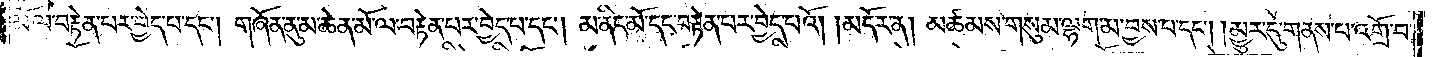མོ་ལ་བརྟེན་པར་བྱེད་པ་དང༌། གཞོན་ནུ་མ་ཆེན་མོ་ལ་བརྟེན་པར་བྱེད་པ་དང༌། མ་ནིང་མོ་དང་བརྟེན་པར་བྱེད་པའོ། །མདོར་ན། མཚམས་གསུམ་ལྷག་མ་བྱས་པ་དང༌། །མྱུར་དུ་གནས་པ་འགྲོ་བ་
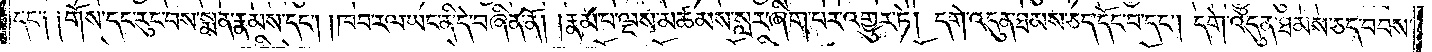དང་༑ ༑གོས་དང་རུང་བས་སྨན་རྣམས་དང༌། །ཁབ་རལ་ཡང་ནི་དེ་བཞིན་ནོ། །རྣམ་པ་ལྔས་མཚམས་སླར་ཞིག་པར་འགྱུར་ཏེ། དགེ་འདུན་ཐམས་ཅད་དོང་བ་དང༌། དགེ་འདུན་ཐམས་ཅད་བབས་
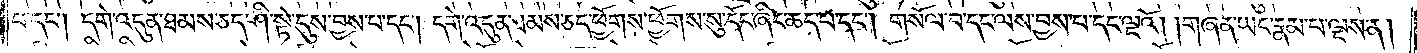པ་དང༌། དགེ་འདུན་ཐམས་ཅད་ཤི་སྟེ་དུས་བྱས་པ་དང༌། དགེ་འདུན་ཐམས་ཅད་ཕྱོགས་ཕྱོགས་སུ་དོང་ཞིང་ཆད་པ་དང༌། གསོལ་བ་དང་ལས་བྱས་པ་དང་ལྔའོ། །གཞན་ཡང་རྣམ་པ་ལྔས་ན།
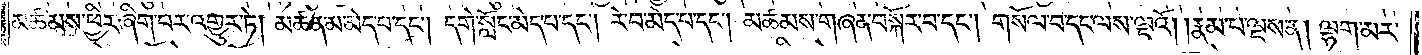མཚམས་ཕྱིར་ཞིག་པར་འགྱུར་ཏེ། མཚན་མ་མེད་པ་དང༌། དགེ་སློང་མེད་པ་དང༌། རེ་བ་མེད་པ་དང༌། མཚམས་གཞན་བསྐོར་བ་དང༌། གསོལ་བ་དང་ལས་ལྔའོ། །རྣམ་པ་ལྔས་ན། ལྷག་མར་
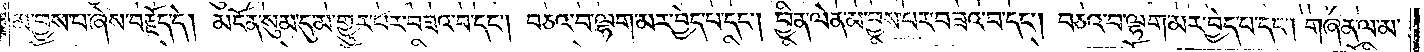མ་བྱས་པ་ཞེས་བརྗོད་དེ། མངོན་སུམ་དུ་མ་གྱུར་པར་བཟའ་བ་དང༌། བཅའ་བ་ལྷག་མར་བྱེད་པ་དང༌། ཕྱིན་ལེན་མ་བྱས་པར་བཟའ་བ་དང༌། བཅའ་བ་ལྷག་མར་བྱེད་པ་དང༌། གཞན་ལ་མ་
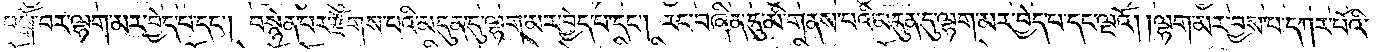བསྒོ་བར་ལྷག་མར་བྱེད་པ་དང༌། བསྙེན་པར་རྫོགས་པའི་མདུན་དུ་ལྷག་མར་བྱེད་པ་དང༌། རང་བཞིན་དུ་མི་གནས་པའི་མདུན་དུ་ལྷག་མར་བྱེད་པ་དང་ལྔའོ། །ལྷག་མར་བྱས་པ་དཀར་པོའི་
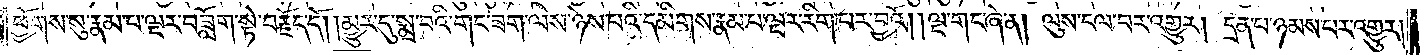ཕྱོགས་སུ་རྣམ་པ་ལྔར་བཟློག་སྟེ་བརྗོད་དོ། །མྱུར་དུ་སྨྲ་བའི་གང་ཟག་ལས་ཉེས་པའི་དམིགས་རྣམ་པ་ལྔར་རིག་པར་བྱའོ། །ལྔ་གང་ཞེ་ན། ལུས་ངལ་བར་འགྱུར། དྲན་པ་ཉམས་པར་འགྱུར།
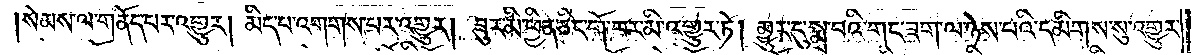སེམས་ལ་གནོད་པར་འགྱུར། མིད་པ་འགགས་པར་འགྱུར། ཟུར་མི་ཕྱིན་ཅིང་གོ་བར་མི་འགྱུར་ཏེ། མྱུར་དུ་སྨྲ་བའི་གང་ཟག་ལ་ཉེས་པའི་དམིགས་སུ་འགྱུར་
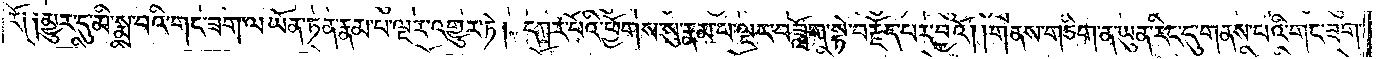རོ༑ ༑མྱུར་དུ་མི་སྨྲ་བའི་གང་ཟག་ལ་ཡོན་ཏན་རྣམ་པ་ལྔར་འགྱུར་ཏེ། དཀར་པོའི་ཕྱོགས་སུ་རྣམ་པ་ལྔར་བཟློག་སྟེ་བརྗོད་པར་བྱའོ། །གནས་གཅིག་ན་ཡུན་རིང་དུ་གནས་པའི་གང་ཟག་
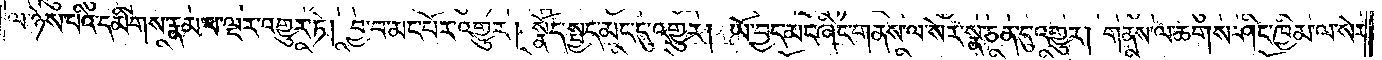ལ་ཉེས་པའི་དམིགས་རྣམ་པ་ལྔར་འགྱུར་ཏེ། བྱ་བ་མང་པོར་འགྱུར། སྣོད་སྤྱད་མང་དུ་འགྱུར། ཡོ་བྱད་མང་ཞིང་གནས་ལ་སེར་སྣ་ཅན་དུ་འགྱུར། གནས་ལ་ཆགས་ཤིང་ཁྱིམ་ལ་སེར་
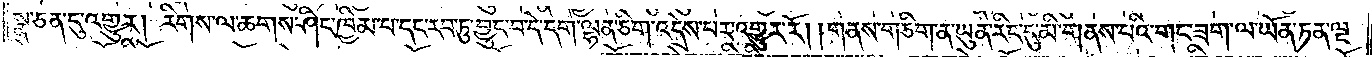སྣ་ཅན་དུ་འགྱུར། རིགས་ལ་ཆགས་ཤིང་ཁྱིམ་པ་དང་རབ་ཏུ་བྱུང་བ་དེ་དག་ལྷན་ཅིག་འདྲེས་པར་འགྱུར་རོ། །གནས་གཅིག་ན་ཡུན་རིང་དུ་མི་གནས་པའི་གང་ཟག་ལ་ཡོན་ཏན་ལྔ་
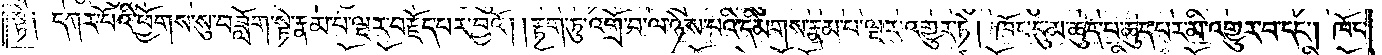སྟེ༑ དཀར་པོའི་ཕྱོགས་སུ་བཟློག་སྟེ་རྣམ་པ་ལྔར་བརྗོད་པར་བྱའོ། །རྟག་ཏུ་འགྲོ་བ་ལ་ཉེས་པའི་དམིགས་རྣམ་པ་ལྔར་འགྱུར་ཏེ། ཁོང་དུ་མ་ཆུད་པ་ཆུད་པར་མི་འགྱུར་བ་དང༌། ཁོང་
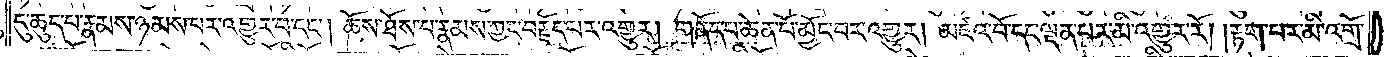དུ་ཆུད་པ་རྣམས་ཉམས་པར་འགྱུར་བ་དང༌། ཆོས་ཐོས་པ་རྣམས་ཀྱང་བརྗོད་པར་འགྱུར། གནོད་པ་ཆེན་པོ་མྱོང་བར་འགྱུར། མཛའ་བོ་དང་ལྡན་པར་མི་འགྱུར་རོ། །རྟག་པར་མི་འགྲོ་
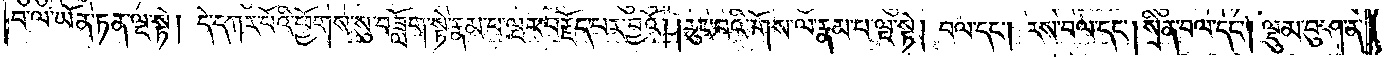བ་ལ་ཡོན་ཏན་ལྔ་སྟེ། དེ་དཀར་པོའི་ཕྱོགས་སུ་བཟློག་སྟེ་རྣམ་པ་ལྔར་བརྗོད་པར་བྱའོ། །རུང་བའི་གོས་ལ་རྣམ་པ་ལྔ་སྟེ། བལ་དང༌། རས་བལ་དང༌། སྲིན་བལ་དང༌། ལྡུམ་བུ་ཤ་ན་
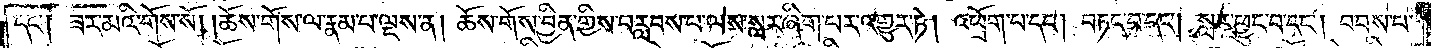དང༌། ཟར་མའི་གོས་སོ། །ཆོས་གོས་ལ་རྣམ་པ་ལྔས་ན། ཆོས་གོས་བྱིན་གྱིས་བརླབས་པ་ལས་སླར་ཞིག་པར་འགྱུར་ཏེ། འཕྲོག་པ་དང༌། བཏང་བ་དང༌། སླར་ཕྱུང་བ་དང༌། བབས་པ་
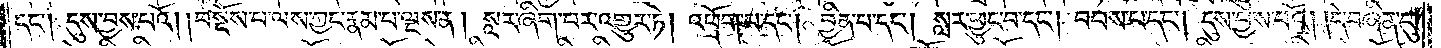དང༌། དུས་བྱས་པའོ། །བསྔོས་པ་ལས་ཀྱང་རྣམ་པ་ལྔས་ན། སླར་ཞིག་པར་འགྱུར་ཏེ། འཕྲོག་པ་དང༌། བྱིན་པ་དང༌། སླར་ཕྱུང་བ་དང༌། བབས་པ་དང༌། དུས་བྱས་པའོ། །དེ་བཞིན་དུ་
